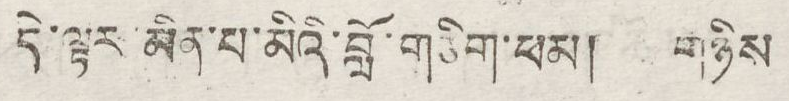དེ་ལྟར མིན་པ་མིའི་བློ་གཅིག་ཕམ། གཉིས
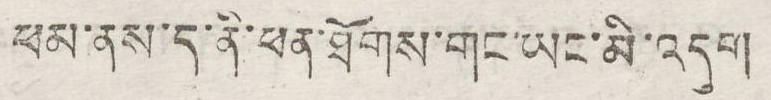ཕམ་ནས་ད་ནི་ཕན་ཐོགས་གང་ཡང་མི་འདུག
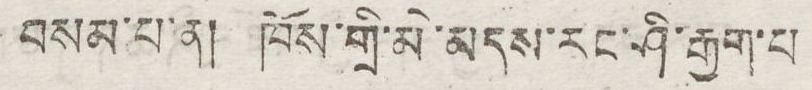བསམ་པ་ན། ཁོས་གྲི་མེ་མདས་རང་ཤི་རྒྱག་པ
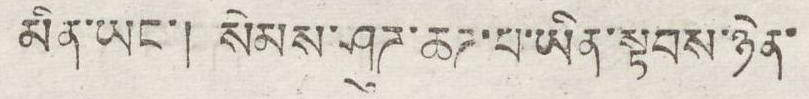མིན་ཡང་། སེམས་ཤུཊ་ཆཊ་པ་ཡིན་སྟབས་ཉེན་
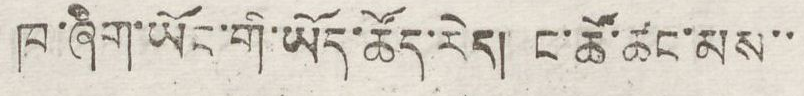ཁ་ཞིག་ཡོང་གི་ཡོད་ཚོད་རེད། ང་ཚོ་ཚང་མས་་
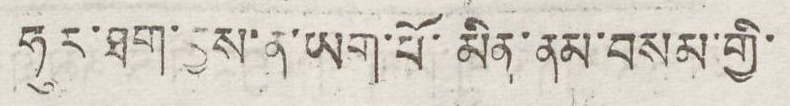ཧུར་ཐག་བྱས་ན་ཡག་པོ་མིན་ནམ་བསམ་གྱི་
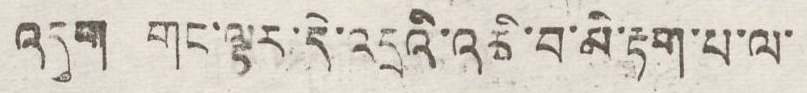འདུག གང་ལྟར་དེ་འདྲའི་འཆི་བ་མི་རྟག་པ་ལ་
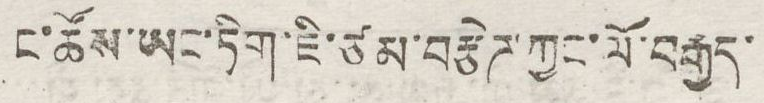ང་ཚོས་ཡང་ཏིག་ཇི་ཙམ་བརྩེཊ་ཀྱང་ལོ་བརྒྱད་
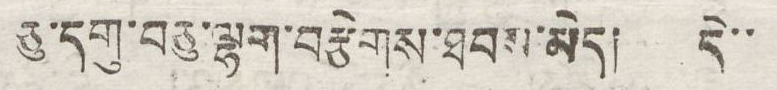ཅུ་དགུ་བཅུ་ལྷག་བརྩེགས་ཐབས་མེད། དེ་་
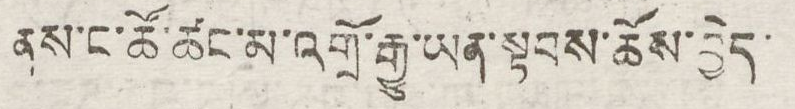ནས་ང་ཚོ་ཚང་མ་འགྲོ་རྒྱུ་ཡན་སྟབས་ཆོས་བྱེད་
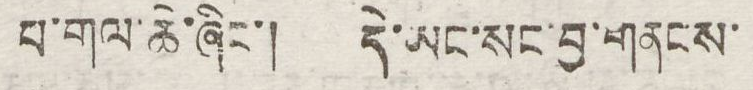པ་གལ་ཆེ་ཞིང་། དེ་ཡང་སང་བྱ་གནངས་
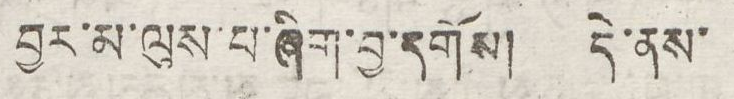བྱར་མ་ལུས་པ་ཞིག་བྱ་དགོས། དེ་ནས་
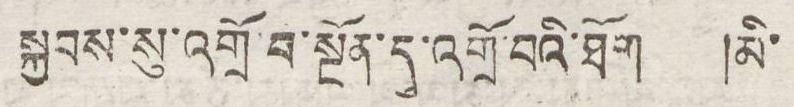སྐྱབས་སུ་འགྲོ་བ་སྔོན་དུ་འགྲོ་བའི་ཐོག །མི་
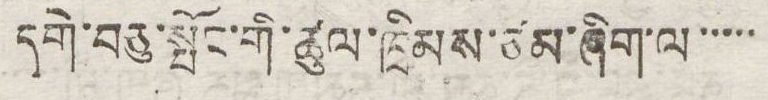དགེ་བཅུ་སྤྱོང་གི་ཚུལ་ཁྲིམས་ཙམ་ཞིག་ལ་་་་་
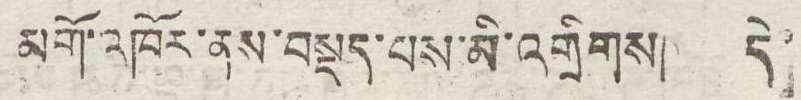མགོ་འཁོར་ནས་བསྡད་པས་མི་འགྲིགས། དེ་
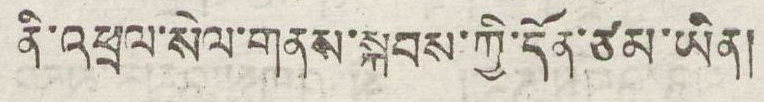ནི་འཕྲལ་སེལ་གནས་སྐབས་ཀྱི་དོན་ཙམ་ཡིན།
